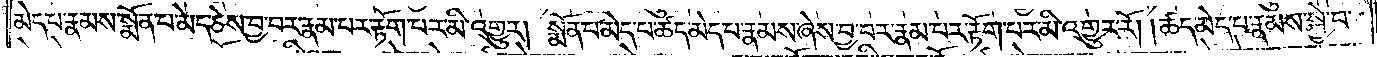མེད་པ་རྣམས་སྨོན་པ་མེད་ཅེས་བྱ་བར་རྣམ་པར་རྟོག་པར་མི་འགྱུར། སྨོན་པ་མེད་པ་ཚད་མེད་པ་རྣམས་ཞེས་བྱ་བར་རྣམ་པར་རྟོག་པར་མི་འགྱུར་རོ། །ཚད་མེད་པ་རྣམས་སྐྱེ་བ་
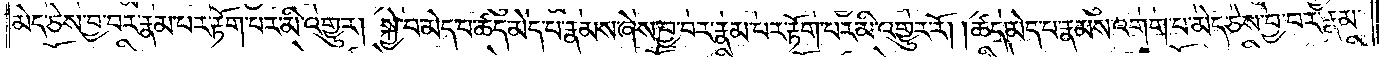མེད་ཅེས་བྱ་བར་རྣམ་པར་རྟོག་པར་མི་འགྱུར། སྐྱེ་བ་མེད་པ་ཚད་མེད་པ་རྣམས་ཞེས་བྱ་བར་རྣམ་པར་རྟོག་པར་མི་འགྱུར་རོ། །ཚད་མེད་པ་རྣམས་འགག་པ་མེད་ཅེས་བྱ་བར་རྣམ་
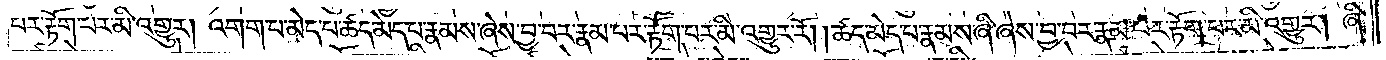པར་རྟོག་པར་མི་འགྱུར། འགག་པ་མེད་པ་ཚད་མེད་པ་རྣམས་ཞེས་བྱ་བར་རྣམ་པར་རྟོག་པར་མི་འགྱུར་རོ། །ཚད་མེད་པ་རྣམས་ཞི་ཞེས་བྱ་བར་རྣམ་པར་རྟོག་པར་མི་འགྱུར། ཞི་
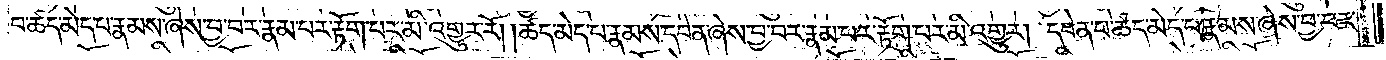བ་ཚད་མེད་པ་རྣམས་ཞེས་བྱ་བར་རྣམ་པར་རྟོག་པར་མི་འགྱུར་རོ། །ཚད་མེད་པ་རྣམས་དབེན་ཞེས་བྱ་བར་རྣམ་པར་རྟོག་པར་མི་འགྱུར། དབེན་པ་ཚད་མེད་པ་རྣམས་ཞེས་བྱ་བར་
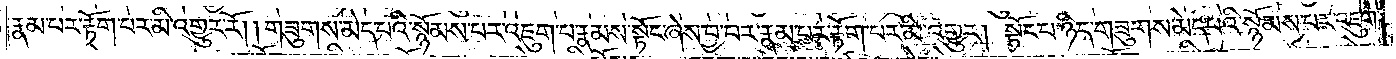རྣམ་པར་རྟོག་པར་མི་འགྱུར་རོ། །གཟུགས་མེད་པའི་སྙོམས་པར་འཇུག་པ་རྣམས་སྟོང་ཞེས་བྱ་བར་རྣམ་པར་རྟོག་པར་མི་འགྱུར། སྟོང་པ་ཉིད་གཟུགས་མེད་པའི་སྙོམས་པར་འཇུག་
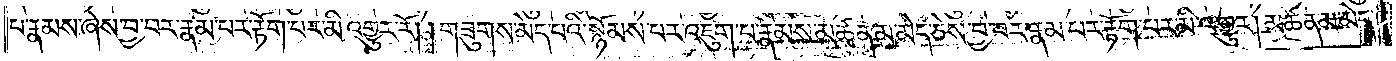པ་རྣམས་ཞེས་བྱ་བར་རྣམ་པར་རྟོག་པར་མི་འགྱུར་རོ། །གཟུགས་མེད་པའི་སྙོམས་པར་འཇུག་པ་རྣམས་མཚན་མ་མེད་ཅེས་བྱ་བར་རྣམ་པར་རྟོག་པར་མི་འགྱུར། མཚན་མ་མེད་
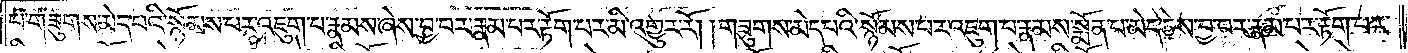པ་གཟུགས་མེད་པའི་སྙོམས་པར་འཇུག་པ་རྣམས་ཞེས་བྱ་བར་རྣམ་པར་རྟོག་པར་མི་འགྱུར་རོ། །གཟུགས་མེད་པའི་སྙོམས་པར་འཇུག་པ་རྣམས་སྨོན་པ་མེད་ཅེས་བྱ་བར་རྣམ་པར་རྟོག་པར་
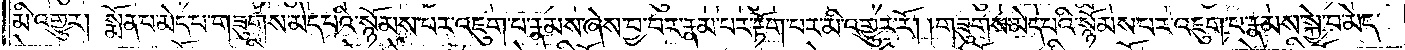མི་འགྱུར། སྨོན་པ་མེད་པ་གཟུགས་མེད་པའི་སྙོམས་པར་འཇུག་པ་རྣམས་ཞེས་བྱ་བར་རྣམ་པར་རྟོག་པར་མི་འགྱུར་རོ། །གཟུགས་མེད་པའི་སྙོམས་པར་འཇུག་པ་རྣམས་སྐྱེ་བ་མེད་
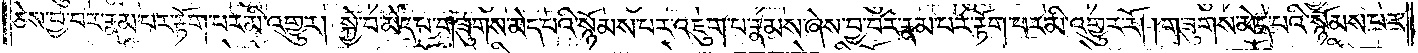ཅེས་བྱ་བར་རྣམ་པར་རྟོག་པར་མི་འགྱུར། སྐྱེ་བ་མེད་པ་གཟུགས་མེད་པའི་སྙོམས་པར་འཇུག་པ་རྣམས་ཞེས་བྱ་བར་རྣམ་པར་རྟོག་པར་མི་འགྱུར་རོ། །གཟུགས་མེད་པའི་སྙོམས་པར་
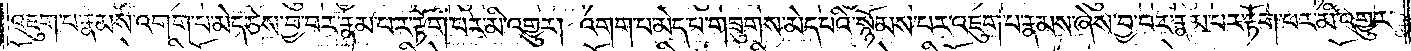འཇུག་པ་རྣམས་འགག་པ་མེད་ཅེས་བྱ་བར་རྣམ་པར་རྟོག་པར་མི་འགྱུར། འགག་པ་མེད་པ་གཟུགས་མེད་པའི་སྙོམས་པར་འཇུག་པ་རྣམས་ཞེས་བྱ་བར་རྣམ་པར་རྟོག་པར་མི་འགྱུར་
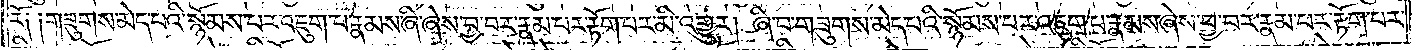རོ༏ ༏གཟུགས་མེད་པའི་སྙོམས་པར་འཇུག་པ་རྣམས་ཞི་ཞེས་བྱ་བར་རྣམ་པར་རྟོག་པར་མི་འགྱུར། ཞི་བ་གཟུགས་མེད་པའི་སྙོམས་པར་འཇུག་པ་རྣམས་ཞེས་བྱ་བར་རྣམ་པར་རྟོག་པར་
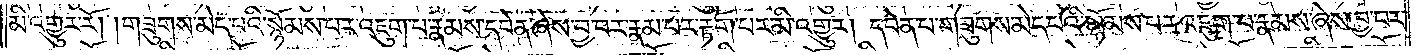མི་འགྱུར་རོ། །གཟུགས་མེད་པའི་སྙོམས་པར་འཇུག་པ་རྣམས་དབེན་ཞེས་བྱ་བར་རྣམ་པར་རྟོག་པར་མི་འགྱུར། དབེན་པ་གཟུགས་མེད་པའི་སྙོམས་པར་འཇུག་པ་རྣམས་ཞེས་བྱ་བར་
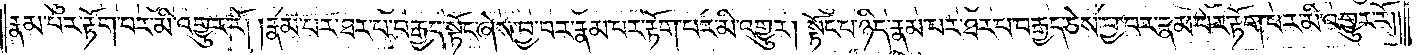རྣམ་པར་རྟོག་པར་མི་འགྱུར་རོ། །རྣམ་པར་ཐར་པ་བརྒྱད་སྟོང་ཞེས་བྱ་བར་རྣམ་པར་རྟོག་པར་མི་འགྱུར། སྟོང་པ་ཉིད་རྣམ་པར་ཐར་པ་བརྒྱད་ཅེས་བྱ་བར་རྣམ་པར་རྟོག་པར་མི་འགྱུར་རོ། །
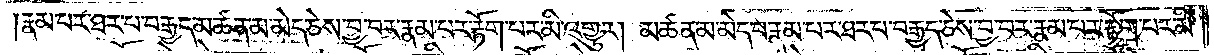རྣམ་པར་ཐར་པ་བརྒྱད་མཚན་མ་མེད་ཅེས་བྱ་བར་རྣམ་པར་རྟོག་པར་མི་འགྱུར། མཚན་མ་མེད་པ་རྣམ་པར་ཐར་པ་བརྒྱད་ཅེས་བྱ་བར་རྣམ་པར་རྟོག་པར་མི་
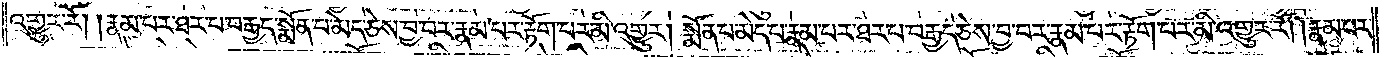འགྱུར་རོ། །རྣམ་པར་ཐར་པ་བརྒྱད་སྨོན་པ་མེད་ཅེས་བྱ་བར་རྣམ་པར་རྟོག་པར་མི་འགྱུར། སྨོན་པ་མེད་པ་རྣམ་པར་ཐར་པ་བརྒྱད་ཅེས་བྱ་བར་རྣམ་པར་རྟོག་པར་མི་འགྱུར་རོ། །རྣམ་པར་
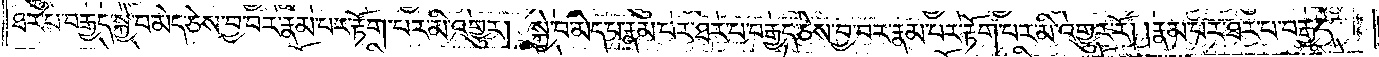ཐར་པ་བརྒྱད་སྐྱེ་བ་མེད་ཅེས་བྱ་བར་རྣམ་པར་རྟོག་པར་མི་འགྱུར། སྐྱེ་བ་མེད་པ་རྣམ་པར་ཐར་པ་བརྒྱད་ཅེས་བྱ་བར་རྣམ་པར་རྟོག་པར་མི་འགྱུར་རོ། །རྣམ་པར་ཐར་པ་བརྒྱད་
